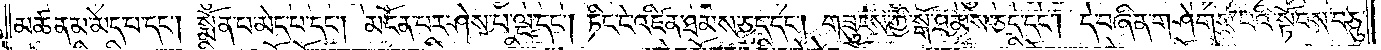མཚན་མ་མེད་པ་དང༌། སྨོན་པ་མེད་པ་དང༌། མངོན་པར་ཤེས་པ་ལྔ་དང༌། ཏིང་ངེ་འཛིན་ཐམས་ཅད་དང༌། གཟུངས་ཀྱི་སྒོ་ཐམས་ཅད་དང༌། དེ་བཞིན་གཤེགས་པའི་སྟོབས་བཅུ་
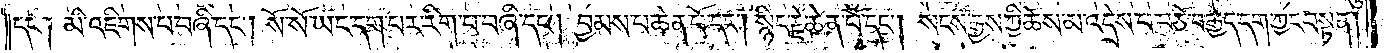དང༌། མི་འཇིགས་པ་བཞི་དང༌། སོ་སོ་ཡང་དག་པར་རིག་པ་བཞི་དང༌། བྱམས་པ་ཆེན་པོ་དང༌། སྙིང་རྗེ་ཆེན་པོ་དང༌། སངས་རྒྱས་ཀྱི་ཆོས་པ་འདྲེས་པ་བཅོ་བརྒྱད་དག་ཀྱང་བསྟན།
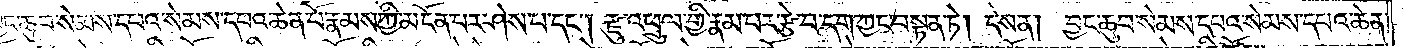བྱང་ཆུབ་སེམས་དཔའ་སེམས་དཔའ་ཆེན་པོ་རྣམས་ཀྱི་མངོན་པར་ཤེས་པ་དང༌། རྫུ་འཕྲུལ་གྱིས་རྣམ་པར་རྩེ་བ་དག་ཀྱང་བསྟན་ཏེ། དེས་ན། བྱང་ཆུབ་སེམས་དཔའ་སེམས་དཔའ་ཆེན་
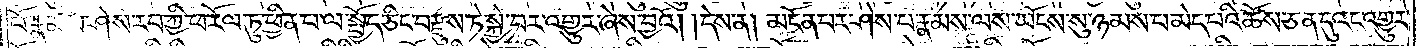པོ་རྣམས་ཤེས་རབ་ཀྱི་ཕ་རོལ་ཏུ་ཕྱིན་པ་ལ་སྤྱོད་ཅིང་བརྫུས་ཏེ་སྐྱེ་བར་འགྱུར་ཞེས་བྱའོ། །དེས་ན། མངོན་པར་ཤེས་པ་རྣམས་ལས་ཡོངས་སུ་ཉམས་པ་མེད་པའི་ཆོས་ཅན་དུའང་འགྱུར་
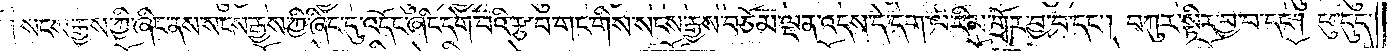རོ༏ ༏སངས་རྒྱས་ཀྱི་ཞིང་ནས་སངས་རྒྱས་ཀྱི་ཞིང་དུ་འདོང་ཞིང་དགེ་བའི་རྩ་བ་གང་གིས་སངས་རྒྱས་བཅོམ་ལྡན་འདས་དེ་དག་ལ་རིམ་གྲོར་བྱ་བ་དང༌། བཀུར་སྟིར་བྱ་བ་དང༌། ཕུ་དུད་
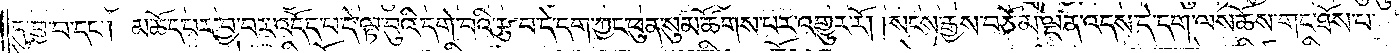དུ་བྱ་བ་དང༌། མཆོད་པར་བྱ་བར་འདོད་པ་དེ་ལྟ་བུའི་དགེ་བའི་རྩ་བ་དེ་དག་ཀྱང་ཕུན་སུམ་ཚོགས་པར་འགྱུར་རོ། །སངས་རྒྱས་བཅོམ་ལྡན་འདས་དེ་དག་ལས་ཆོས་གང་ཐོས་པ་
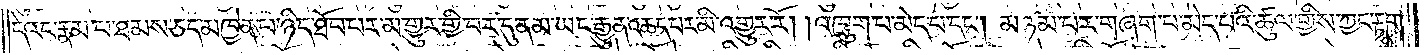དེའང་རྣམ་པ་ཐམས་ཅད་མཁྱེན་པ་ཉིད་ཐོབ་པར་མ་གྱུར་གྱི་བར་དུ་ནམ་ཡང་རྒྱུན་ཆད་པར་མི་འགྱུར་རོ། །འཁྲུག་པ་མེད་པ་དང༌། མཉམ་པར་བཞག་པ་མེད་པའི་ཚུལ་གྱིས་ཀྱང་རྟག་
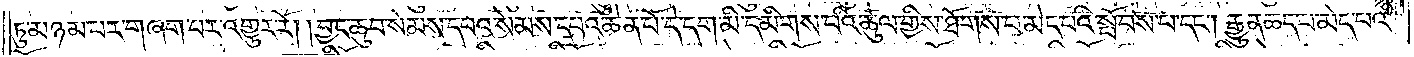ཏུ་མཉམ་པར་གཞག་པར་འགྱུར་རོ། །བྱང་ཆུབ་སེམས་དཔའ་སེམས་དཔའ་ཆེན་པོ་དེ་དག་མི་དམིགས་པའི་ཚུལ་གྱིས་ཐོགས་པ་མེད་པའི་སྤོབས་པ་དང༌། རྒྱུན་ཆད་པ་མེད་པའི་
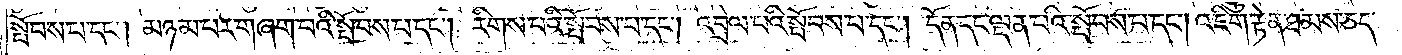སྤོབས་པ་དང༌། མཉམ་པར་གཞག་པའི་སྤོབས་པ་དང༌། རིགས་པའི་སྤོབས་པ་དང༌། འབྲེལ་པའི་སྤོབས་པ་དང༌། །དོན་དང་ལྡན་པའི་སྤོབས་པ་དང༌། འཇིག་རྟེན་ཐམས་ཅད་
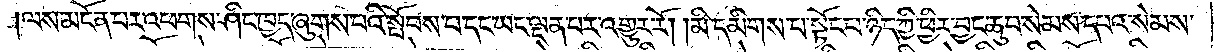ལས་མངོན་པར་འཕགས་ཤིང་ཁྱད་ཞུགས་པའི་སྤོབས་པ་དང་ཡང་ལྡན་པར་འགྱུར་རོ། །མི་དམིགས་པ་སྟོང་པ་ཉིད་ཀྱི་ཕྱིར་བྱང་ཆུབ་སེམས་དཔའ་སེམས་
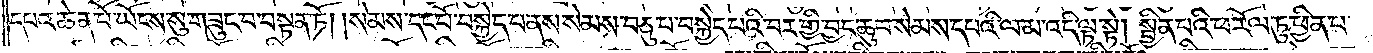དཔའ་ཆེན་པོ་ཡོངས་སུ་བཟུང་བ་བསྟན་ཏོ། །སེམས་དང་པོ་བསྐྱེད་པ་ནས་སེམས་བཅུ་པ་བསྐྱེད་པའི་བར་གྱི་བྱང་ཆུབ་སེམས་དཔའི་ལམ་འདི་ལྟ་སྟེ། སྦྱིན་པའི་ཕ་རོལ་ཏུ་ཕྱིན་པ་
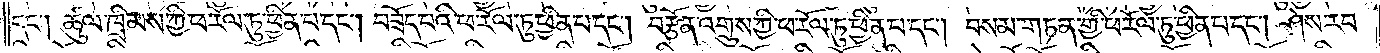དང༌། ཚུལ་ཁྲིམས་ཀྱི་ཕ་རོལ་ཏུ་ཕྱིན་པ་དང༌། བཟོད་པའི་ཕ་རོལ་ཏུ་ཕྱིན་པ་དང༌། བརྩོན་འགྲུས་ཀྱི་ཕ་རོལ་ཏུ་ཕྱིན་པ་དང༌། བསམ་གཏན་གྱི་ཕ་རོལ་ཏུ་ཕྱིན་པ་དང༌། ཤེས་རབ་
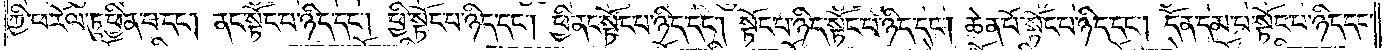ཀྱི་ཕ་རོལ་ཏུ་ཕྱིན་པ་དང༌། ནང་སྟོང་པ་ཉིད་དང༌། ཕྱི་སྟོང་པ་ཉིད་དང༌། ཕྱི་ནང་སྟོང་པ་ཉིད་དང༌། སྟོང་པ་ཉིད་སྟོང་པ་ཉིད་དང༌། ཆེན་པོ་སྟོང་པ་ཉིད་དང༌། དོན་དམ་པ་སྟོང་པ་ཉིད་དང༌།
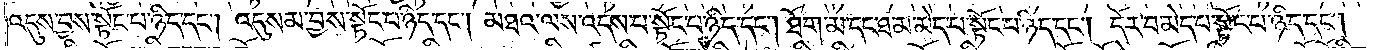འདུས་བྱས་སྟོང་པ་ཉིད་དང༌། འདུས་མ་བྱས་སྟོང་པ་ཉིད་དང༌། མཐའ་ལས་འདས་པ་སྟོང་པ་ཉིད་དང༌། ཐོག་མ་དང་ཐ་མ་མེད་པ་སྟོང་པ་ཉིད་དང༌། དོར་བ་མེད་པ་སྟོང་པ་ཉིད་དང༌།
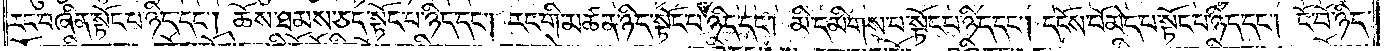རང་བཞིན་སྟོང་པ་ཉིད་དང༌། ཆོས་ཐམས་ཅད་སྟོང་པ་ཉིད་དང༌། རང་གི་མཚན་ཉིད་སྟོང་པ་ཉིད་དང༌། མི་དམིགས་པ་སྟོང་པ་ཉིད་དང༌། དངོས་པོ་མེད་པ་སྟོང་པ་ཉིད་དང༌། ངོ་བོ་ཉིད་
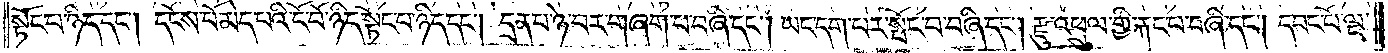སྟོང་པ་ཉིད་དང༌། དངོས་པོ་མེད་པའི་ངོ་བོ་ཉིད་སྟོང་པ་ཉིད་དང༌། དྲན་པ་ཉེ་བར་གཞག་པ་བཞི་དང༌། ཡང་དག་པར་སྤོང་པ་བཞི་དང༌། རྫུ་འཕྲུལ་གྱི་རྐང་བ་བཞི་དང༌། དབང་པོ་ལྔ་
